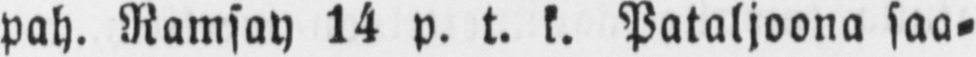pah. Ramsay 14 p. t. k. Pataljoona saa-
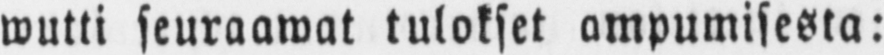wutti seuraawat tulokset ampumisesta:
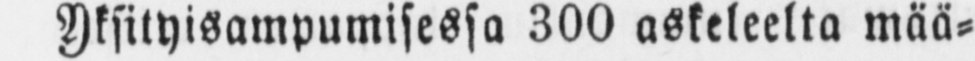Yksityisampumisessa 300 askeleelta mää-
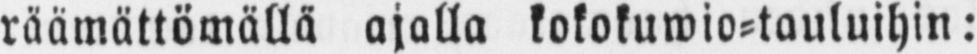räämättömällä ajalla kokokuwio-tauluihin:
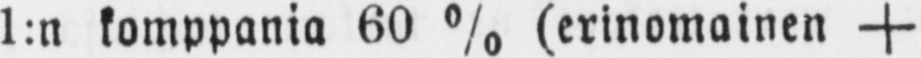1:n komppania 60 % (erinomainen +
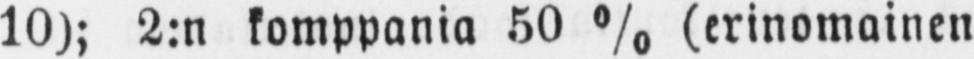10); 2:n komppania 50 % (erinomainen
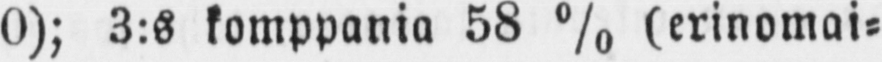+ 0); 3:s komppania 58 % (erinomai-
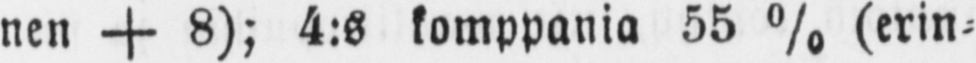nen + 8); 4:s komppania 55 % (erin-
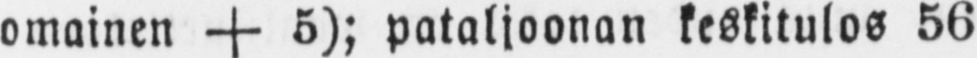omainen + 5); pataljoonan keskitulos 56
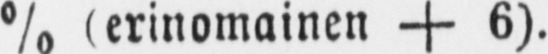% (erinomainen + 6).
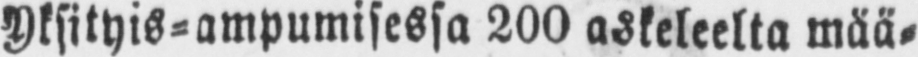Yksityis-ampumisessa 200 askeleelta mää-
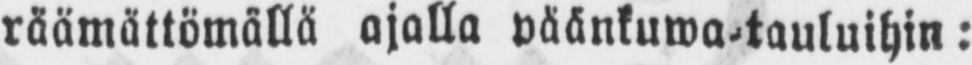räämättömällä ajalla päänkuwa-tauluihin:
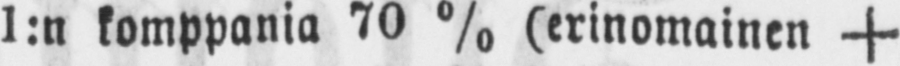1:n komppania 70 % (erinomainen +
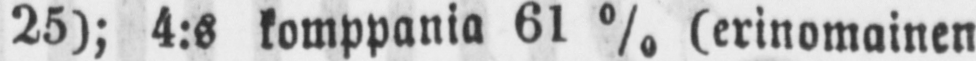25); 4:s komppania 61 % (erinomainen
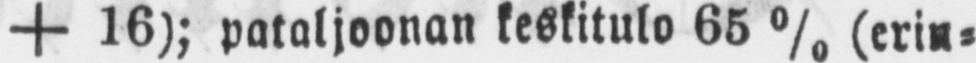+ 16); pataljoonan keskitulo 66 % (erin-
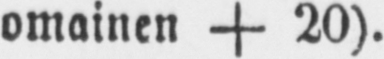omainen + 20).
